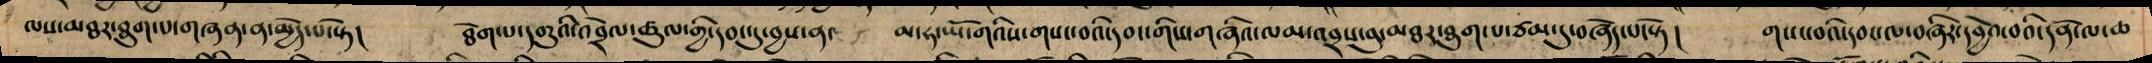ལས་མཐར་ཐུག་པ་གཞན་ན་མྱེད་པ་སྟེ། ཐེག་པ་དགུའི་འབྲེལ་ཚུལ་གྱི་དབང་དུ་བྱས་ན་ མ་ཧ་ཡོ་གའིས་གསང་བའི་དབང་གིས་གཞིའ་ལམ་འབྲས་བུ་མཐར་ཐུག་པ་ཙམ་དུ་བཞེད་པ་སྟེ། གསང་བའི་དབང་ལ་བཞིར་དབྱེའ་བའི་དོན་ལ་ཆ
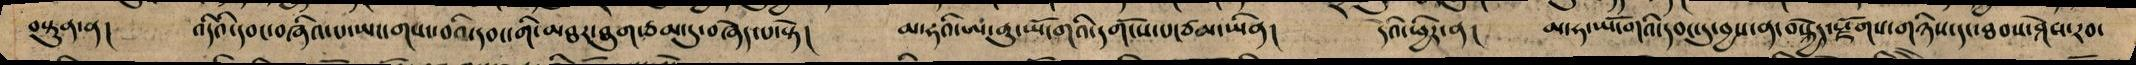བསྟུན་ན། འདིའི་དབང་བཞིའ་པ་ཡང་གསང་བའི་དབང་གི་མཐར་ཐུག་ཙམ་དུ་བཞེད་པ་སྟེ། མ་ཧའི་ཨ་ནུ་ཡོ་གའི་དགོངས་པ་ཙམ་ཡིན། དེའི་ཕྱིར་ན། མ་ཧ་ཡོ་གའི་དབང་དུ་བྱས་ན་བསྐྱེད་སྫོགས་གཉིས་དང་ཐབས་ཤེས་རབ་
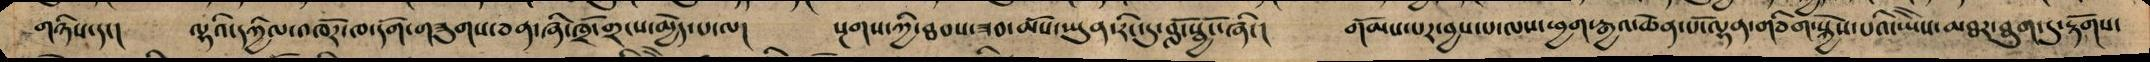གཉིས་དང། ལྷའི་དཀྱིལ་འཁོར་ཁ དོག་གཟུགས་ཅན་ཞི་ཁྲོ་གྲངས་མྱེད་ལ། སྔགས་ཀྱི་ཐབས་ཟབ་མོས་ཡུན་རིང་དུ་བློ་སྦྱོང་ཞིང། གོམས་པར་བྱས་པ་ལས་ཕྱག་རྒྱའ་ཆེན་པོ་ལྷན་གཅིག་སྐྱེས་པའི་ཡཻས་མཐར་ཐུག་དུ་རྟོགས་
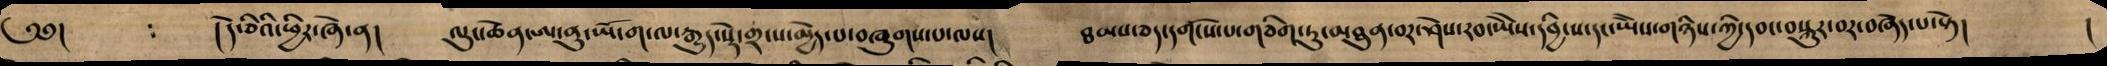༄༅། །དེ་ཅིའི་ཕྱིར་ཞེ་ན། ལུང་ཆེན་ཨ་ནུ་ཡོ་ག་ལ་རྒྱུད་སྡེ་གྲངས་མྱེད་པ་བཞུགས་པ་ལས། ཐམས་ཅད་དགོངས་པ་གཅིག་ཏུ་མཐུན་བར་ཤེས་རབ་ཡཻས་དབྱིངས་དང་ཡཻས་གཉིས་ཀྱི་དབང་བསྐུར་བར་བཞེད་པ་སྟེ། །
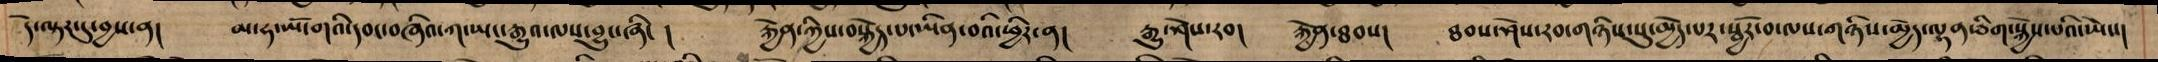དེ་ལྟར་དུ་བྱས་ན། མ་ཧ་ཡོ་གའི་དབང་བཞིའ་ཀ་ཡང་རྒྱུའ་ལས་བྱུང་ཞིང། རྐྱེན་ཀྱིས་བསྐྱེད་པ་ཡིན་བའི་ཕྱིར་ན། རྒྱུ་ཤེས་རབ། རྐྱེན་ཐབས། ཐབས་ཤེས་རབ་གཉིས་སུ་མྱེད་པར་སྦྱོར་བ་ལས་གཉིས་མྱེད་ལྷན་ཅིག་སྐྱེས་པའི་ཡེས།
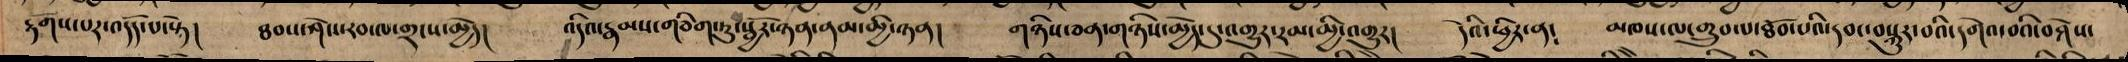རྟོགས་པར་འདོད་པ་སྟེ། ཐབས་ཤེས་རབ་ལ་གྲངས་མྱེད། འདིའ་རྣམས་གཅིག་ཏུ་སྦྱོར་ཉན་ནམ་མྱི་ཉན། གཉིས་ཅན་གཉིས་མྱེད་དུ་འགྱུར་རམ་མྱི་འགྱུར། དེའི་ཕྱིར་ན༴ མཁས་ལ་གྲུབ་པ་ཐོབ་པའི་དབང་བསྐུར་བའི་དགེའ་བའི་བཤེས་
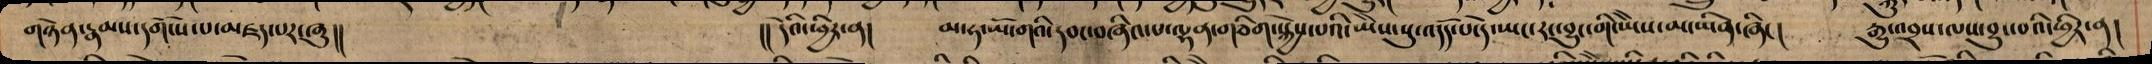གཉེན་རྣམས་དགོངས་པ་མཛད་པར་ཞུ།། །།དེའི་ཕྱིར་ན། མ་ཧ་ཡོ་གའི་དབང་བཞིའ་པ་ལྷན་གཅིག་སྐྱེས་པའི་ཡཻས་སུ་འདོད་པ་དེ་ཡང་རང་བྱུང་གི་ཡཻས་མ་ཡིན་ཞིང། རྒྱུ་འབྲས་ལས་བྱུང་བའི་ཕྱིར་ན།
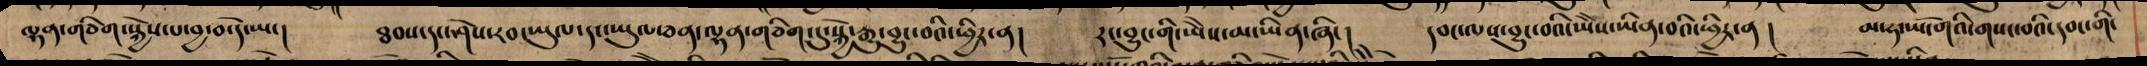ལྷན་གཅིག་སྐྱེས་པ་བྱ་བ་དེ་ཡང། ཐབས་དང་ཤེས་རབ་ཡུལ་དང་ཡུལ་ཅན་ལྷན་གཅིག་ཏུ་སྐྱེ་རྒྱུ་བྱུང་བའི་ཕྱིར་ན། རང་བྱུང་གི་ཡཻས་མ་ཡིན་ཞིང། དབང་ལས་བྱུང་བའི་ཡཻས་ཡིན་བའི་ཕྱིར་ན། མ་ཧ་ཡོ་གའི་གསང་བའི་དབང་གི་
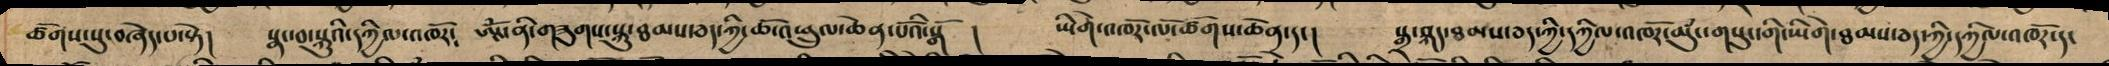ཚོགས་སུ་བཞེད་པ་སྟེ། སྣང་བ་སྐུའི་དཀྱིལ་འཁོར༴ ཨཱོཾ་ནི་གཟུགས་སྐུ་ཐམས་ཅད་ཀྱི་ཆོ་འཕྲུལ་ཆེན་པོའི་སྒོ ། ཡིགེ་འཁཽར་ལོ་ཚོགས་ཆེན་དང། སྒྲ་སྐད་ཐམས་ཅད་ཀྱི་དཀྱིལ་འཁོར་ཆུང་གསུང་གི་ཡིགེ་ཐམས་ཅད་ཀྱི་དཀྱིལ་འཁོར་དང
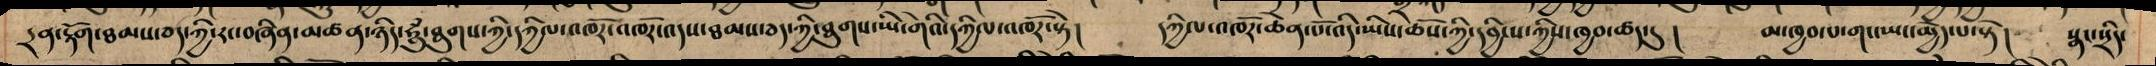དྲན་རྟོག་ཐམས་ཅད་ཀྱི་རང་བཞིན་མཚན་ཉིད་ཧཱུཾ་ཐུགས་ཀྱི་དཀྱིལ་འཁོར་འཁོར་འདས་ཐམས་ཅད་ཡི་གེའི་དཀྱིལ་འཁོར་སྟེ། དཀྱིལ་འཁོར་ཆེན་པོ་འདི་ཡིས་ཆོས་ཀྱི་དབྱིངས་ཀྱིས་ཁྱབ་ཚད་དུ། མ་ཁྱབ་པ་གང་ཡང་མྱེད་པ་སྟེ། སྣང་སྲིད་
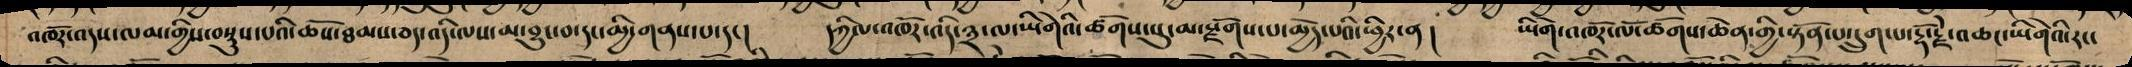འཁོར་འདས་ལམ་གྱིས་བསྡུས་པའི་ཆོས་ཐམས་ཅད་འདི་ལས་མ་བྱུང་བ་དང་མྱི་གནས་པ་དང། དཀྱིལ་འཁོར་འདི་༣་ལ་ཡིགེའི་ཚོགས་སུ་མ་སྫོགས་པ་མྱེད་པའི་ཕྱིར་ན། ཡིགེ་འཁོར་ལོ་ཚོགས་ཆེན་གྱི་སྟོན་པ་དྲུག་པ་རྡོ་རྗེ་འཆང་ཡིགེའི་རང་
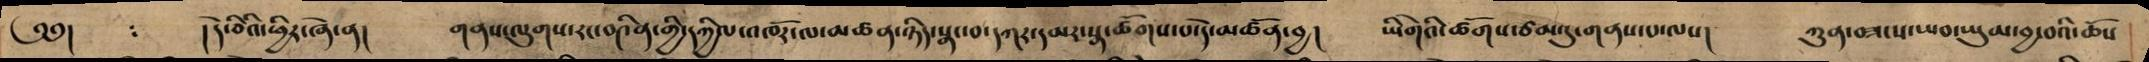༄༅། །དེ་ཅིའི་ཕྱིར་ཞེ་ན། གནས་ལུགས་རང་བཞིན་གྱི་དཀྱིལ་འཁོར་མཚན་ཉིད་སྣང་བ་དཀར་དམར་སྣ་ཚོགས་པ་དེ་མཚོན་བྱ། ཡིགེའི་ཚོགས་ཙམ་དུ་གནས་པ་ལས། ཀུན་བཟང་ཡབ་ཡུམ་བྱ་བའི་ཆོས
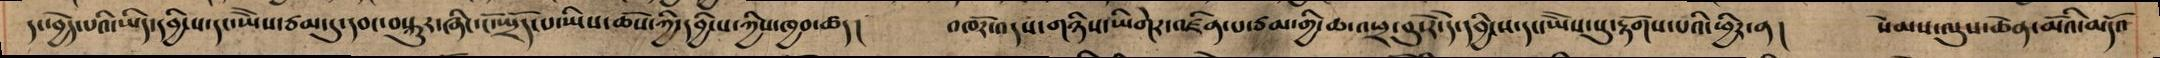དང་བྱེད་པའི་ཡིད་དབྱིངས་དང་ཡཻས་ཙམ་དུ་དབང་བསྐུར་ཞིང་ངོ་སྤྲོད་པ་ཡིས་ཆོས་ཀྱིས་ཁྱབ་ཚད། འཁོར་འདས་གཉིས་ཡིགེར་འཛིན་པ་ཙམ་གྱི་ཆ འཕྲ་བུ་རེ་དེ་དབྱིངས་དང་ཡེེས་སུ་རྟོགས་པའི་ཕྱིར་ན། སེམས་ལུས་ཆེན་མོའི་མདོའ
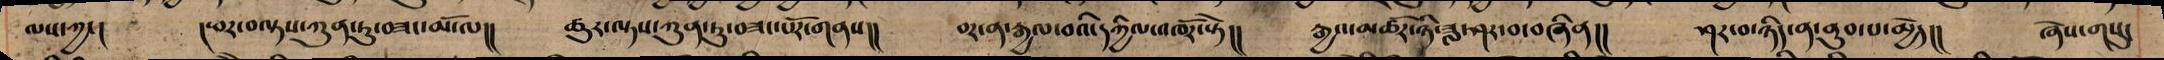ལས་ཀྱང། །ཕར་བལྟས་ཀུན་ཏུ་བཟང་མོ་ལ།། ཚུར་ལྟས་ཀུན་ཏུ་བཟང་པོར་གནས།། བར་ན་རྒྱལ་བའི་དཀྱིལ་འཁོར་སྟེ།། རྒྱའ་མཚོར་ཉི་ཟླ་ཤར་བ་བཞིན།། ཤར་བ་ཉིད་ན་ནུབ་པ་མྱེད།། ཞེས་གསུང
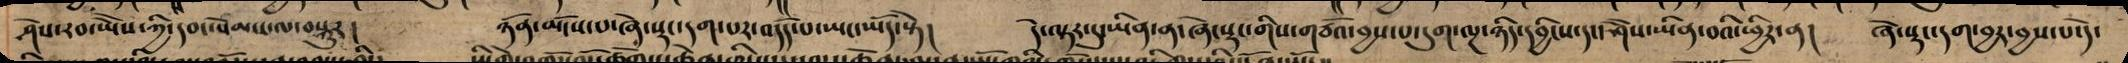ཤེས་རབ་ཡེེས་ཀྱི་དབང་སེམས་ལ་བསྐུར། ཉོན་མོངས་པ་ཞེ་སྡང་དག་པར་འདོད་པ་ཡང་ཡོད་སྟེ། དེ་ལྟར་དུ་ཡིན་ན་ཞེ་སྡང་གིས་གཙོའ་བྱས་པ་དུག་ལྔ་ཉིད་དབྱིངས་དང་ཤེེས་ཡིན་བའི་ཕྱིར་ན། ཞེ་སྡང་དག་བྱར་བྱས་པ་དེ་
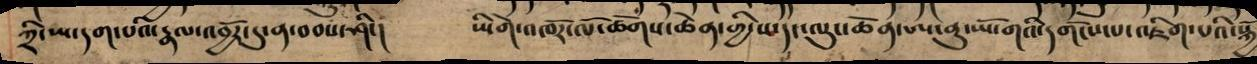ཀྲི་ཡ་དག་པའི་རྣལ་འབྱོར་དུ་ན་བབས་ཤིང། ཡིགེ་འཁོར་ལོ་ཚོགས་ཆེན་གྱི་ས་དང་ལུང་ཆེན་ཨ་ནུ་ཡོ་གའི་དགོངས་པ་འཇིག་པའི་སྐྱོ
